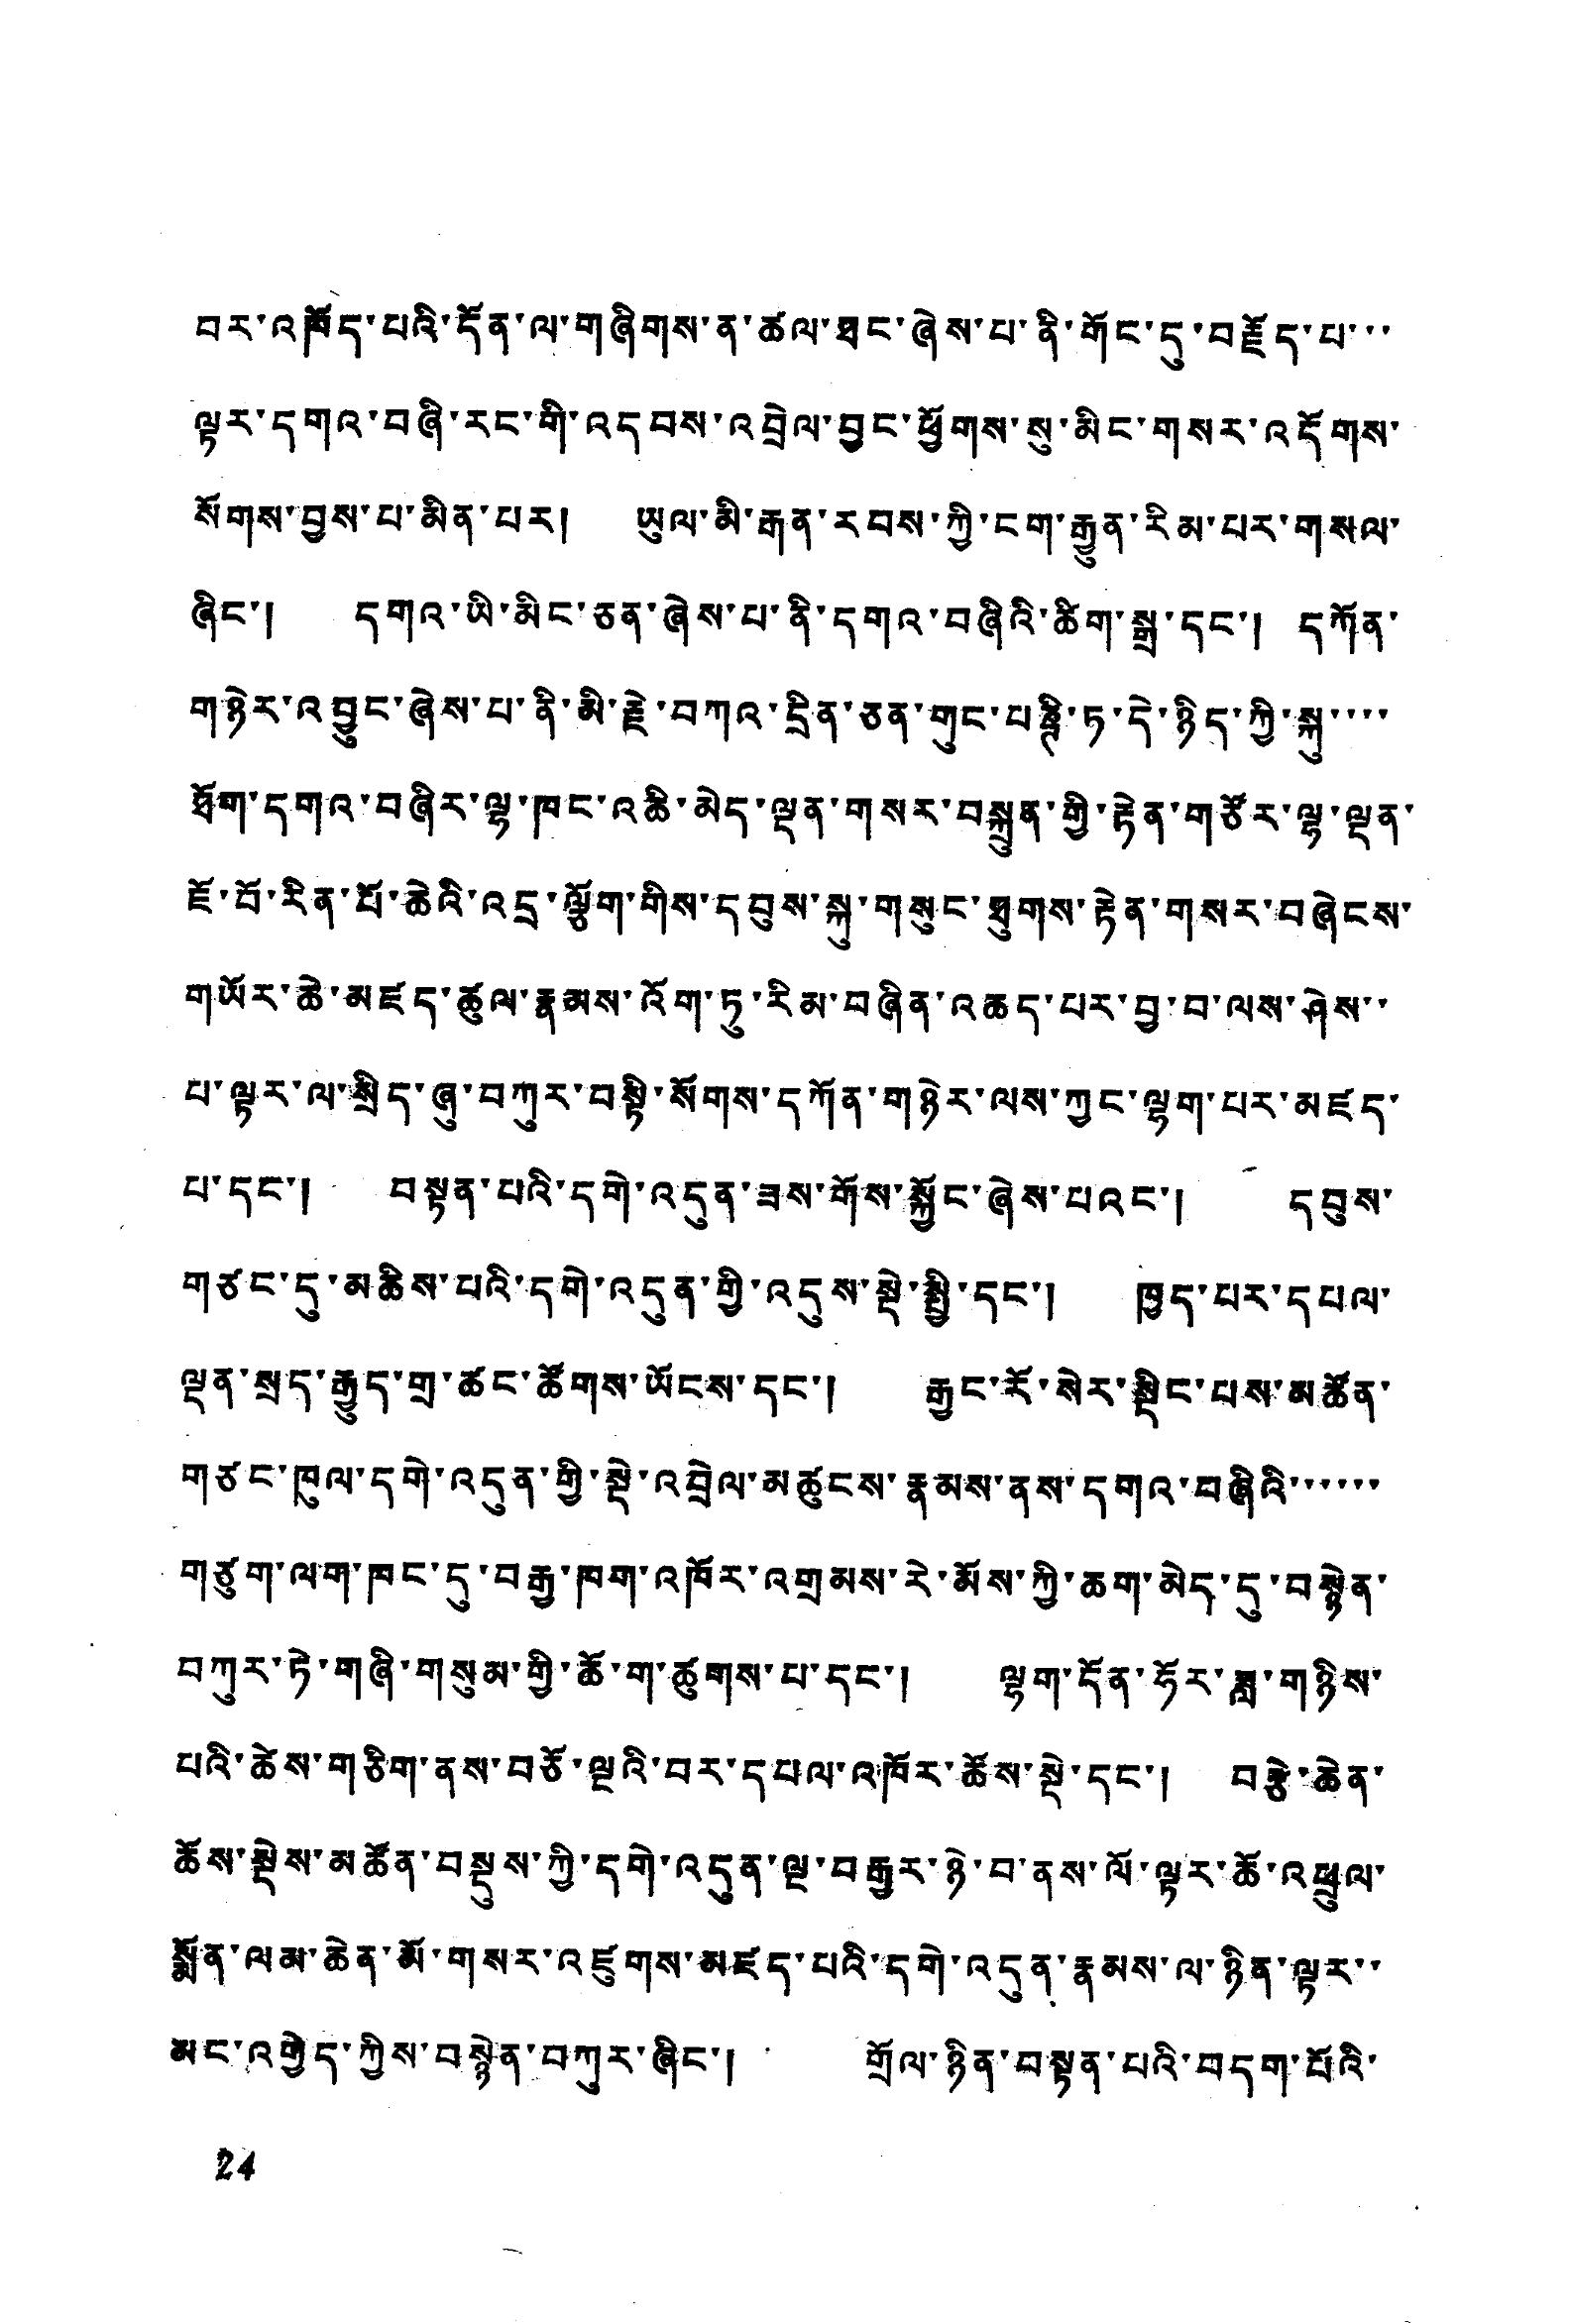བར་འཁོད་པའི་དོན་ལ་གཞིགས་ན་ཚལ་ཐང་ཞེས་པ་ནི་གོང་དུ་བརྗོད་པ་་་
ལྟར་དགའ་བཞི་རང་གི་འདབས་འབྲེལ་བྱང་ཕྱོགས་སུ་མིང་གསར་འདོགས་
སོགས་བྱས་པ་མིན་པར། ཡུལ་མི་རྒན་རབས་ཀྱི་ངག་རྒྱུན་རིམ་པར་གསལ་
ཞིང་། དགའ་ཡི་མིང་ཅན་ཞེས་པ་ནི་དགའ་བཞིའི་ཚིག་སྒྲ་དང་། དཀོན་
གཉེར་འབྱུང་ཞེས་པ་ནི་མི་རྗེ་བཀའ་དྲིན་ཅན་གུང་པཎྚི་ཏ་དེ་ཉིད་ཀྱི་སྐུ་་་་
ཐོག་འགའ་བཞིར་ལྷ་ཁང་འཆི་མེད་ལྡན་གསར་བསྐྲུན་གྱི་རྟེན་གཙོར་ལྷ་ལྡན་
ཇོ་བོ་རིན་པོ་ཆེའི་འདྲ་ལྕོག་གིས་དབུས་སྐུ་གསུང་ཐུགས་རྟེན་གསར་བཞེངས་
གཡོར་ཆེ་མཛད་ཚུལ་རྣམས་འོག་ཏུ་རིམ་བཞིན་འཆད་པར་བྱ་བ་ལས་ཤེས་་
པ་ལྟར་ལ་སྲིད་ཞུ་བཀུར་བསྟི་སོགས་དཀོན་གཉེར་ལས་ཀྱང་ལྷག་པར་མཛད་
པ་དང་། བསྟན་པའི་དགེ་འདུན་ཟས་གོས་སྐྱོང་ཞེས་པའང་། དབུས་
གཙང་དུ་མཆིས་པའི་དགེ་འདུན་གྱི་འདུས་སྡེ་སྤྱི་དང་། ཁྱད་པར་དཔལ་
ལྡན་སྲད་རྒྱུད་གྲ་ཚང་ཚོགས་ཡོངས་དང་། རྒྱང་རོ་སེར་སྡིང་པས་མཚོན་
གཙང་ཁུལ་དགེ་འདུན་གྱི་སྡེ་འབྲེལ་མཚུངས་རྣམས་ནས་དགའ་བཞིའི་་་་་་
གཙུག་ལག་ཁང་དུ་བརྒྱ་ཁག་འཁོར་འགྲམས་རེ་མོས་ཀྱི་ཆག་མེད་དུ་བསྙེན་
བཀུར་ཏེ་གཞི་གསུམ་གྱི་ཆོ་ག་ཚུགས་པ་དང་། ལྷག་དོན་ཧོར་ཟླ་གཉིས་
པའི་ཚེས་གཅིག་ནས་བཅོ་ལྔའི་བར་དཔལ་འཁོར་ཆོས་སྡེ་དང་། བརྩེ་ཆེན་
ཆོས་སྡེས་མཚོན་བསྡུས་ཀྱི་དགེ་འདུན་ལྔ་བརྒྱར་ཉེ་བ་ནས་ལོ་ལྟར་ཆོ་འཕྲུལ་
སྨོན་ལམ་ཆེན་མོ་གསར་འཛུགས་མཛད་པའི་དགེ་འདུན་རྣམས་ལ་ཉིན་ལྟར་་
མང་འགྱེད་ཀྱིས་བསྙེན་བཀུར་ཞིང་། གྲོལ་ཉིན་བསྟན་པའི་བདག་པོའི་
24
